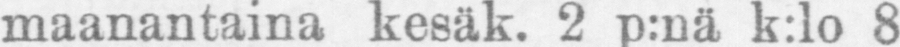maanantaina kesäk. 2 p:nä k:lo 8
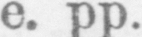e. pp.
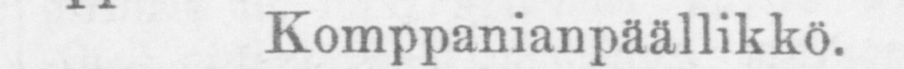Komppanianpäällikkö
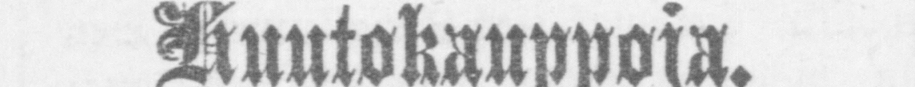Huutokauppoja.
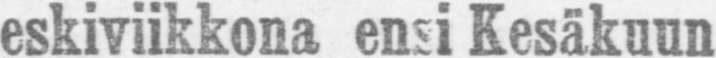Keskiviikkona ensi Kesäkuun
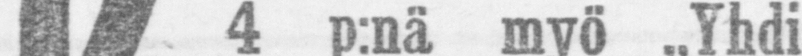4 p:nä myö „Yhdistys
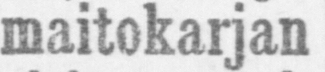Ayrschieren maitokarjan
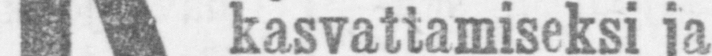kasvattamiseksi ja myömi-
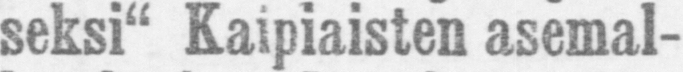seksi" Kaipiaisten asemal-
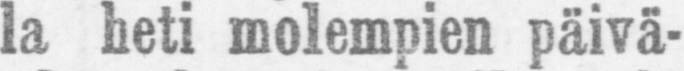la heti molempien päivä-
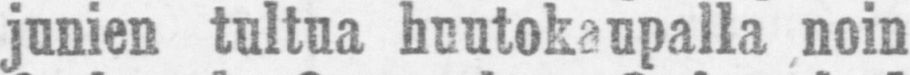junien tultua huutokaupalla noin
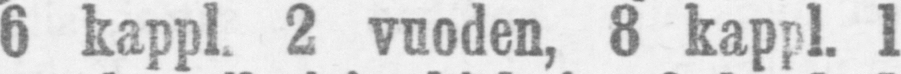6 kappl. 2 vuoden, 8 kappl. 1
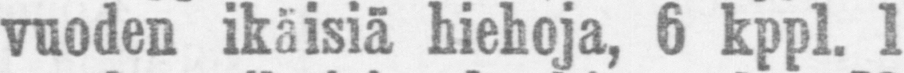vuoden ikäisiä hiehoja, 6 kppl. 1
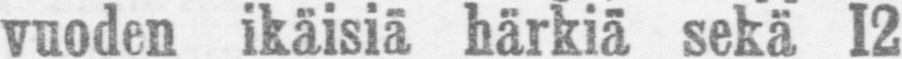vuoden ikäisiä härkiä sekä 12
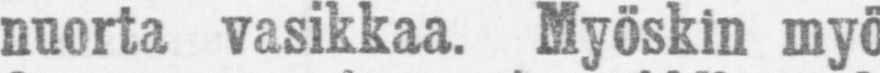nuorta vasikkaa. Myöskin myö-
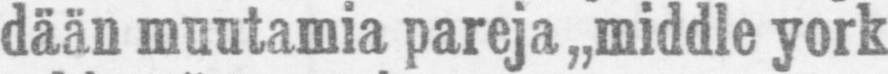dään muutamia pareja „middle york-
